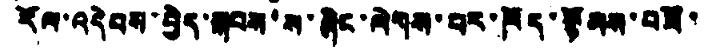རོལ་འདེབས་བྱེད་སྐབས་ས་ཞིང་ལེགས་པར་ཁོད་སྙོམས་བཟོ་
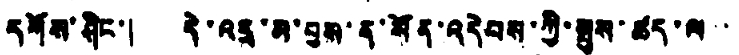དགོས་ཤིང་། དེ་འདྲ་མ་བྱས་ན་སོན་འདེབས་ཀྱི་སྤུས་ཚད་ལ་་
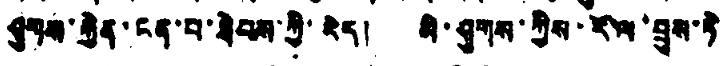ཤུགས་རྐྱེན་ངན་པ་ཐེབས་ཀྱི་རེད། མི་ཤུགས་ཀྱིས་རོལ་བྲུས་ཏེ་
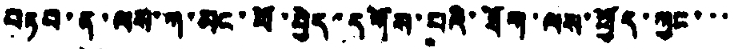བཏབ་ན་ལས་ཀ་མང་པོ་བྱེད་དགོས་པའི་ཐོག་ལས་ཕྱོད་ཀྱང་་་
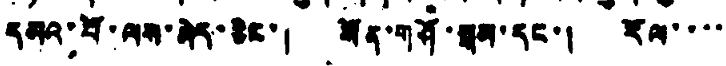དམའ་པོ་ལས་མེད་ཅིང་། སོན་གཤོ་སྐམ་དང་། རོལ་་་་་
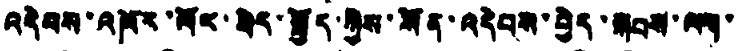འདེབས་འཁོར་ལོར་བེད་སྤྱོད་ཀྱིས་སོན་འདེབས་བྱེད་སྐབས་ལག་
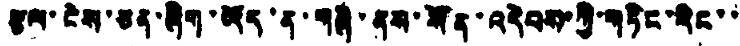རྩལ་ངེས་ཅན་ཞིག་ཡོད་ན་གཞི་ནས་སོན་འདེབས་ཀྱི་གཏིང་རིང་་
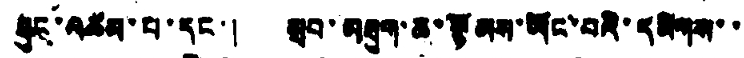ཐུང་འཚམ་པ་དང་། སྲབ་མཐུག་ཆ་སྙོམས་ཡོང་བའི་དམིགས་་
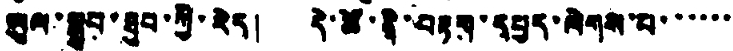ཡུལ་སྒྲུབ་ཐུབ་ཀྱི་རེད། དེ་ཚོ་ནི་བརྟག་དཔྱད་ལེགས་པ་་་་་་
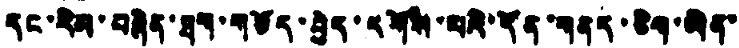དང་རིམ་བཞིན་ཐག་གཅོད་བྱེད་དགོས་པའི་དོན་གནད་ཅིག་ཡིན་
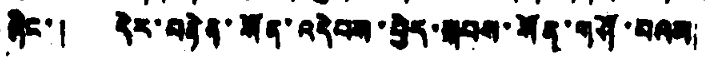ཞིང་། དེར་བརྟེན་སོན་འདེབས་བྱེད་སྐབས་སོན་གཤོ་བའམ།
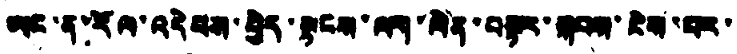ཡང་ན་རོལ་འདེབས་བྱེད་སྟངས་ལག་ལེན་བསྟར་སྐབས་ངེས་པར་
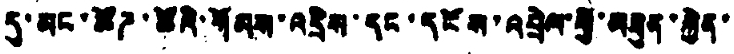དུ་མང་ཚོཌ་ཚོའི་གོམས་འདྲིས་དང་དངོས་འབྲེལ་གྱི་མཐུན་རྐྱེན་
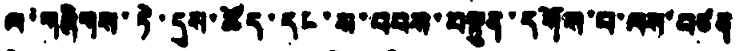ལ་གཞིགས་ཏེ་དུས་ཚོད་དང་ས་བབས་བསྟུན་དགོས་པ་ལས་བཙན
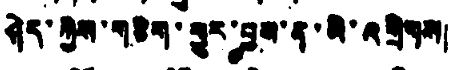ཤེད་ཀྱིས་གཅིག་གྱུར་བྱས་ན་མི་འགྲིགས།
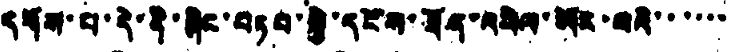དགོས་པ་དེ་ནི་ཞིང་བཏབ་སྐྱེ་དངོས་ཐོན་འཕེལ་ཡོང་བའི་་་་་་
